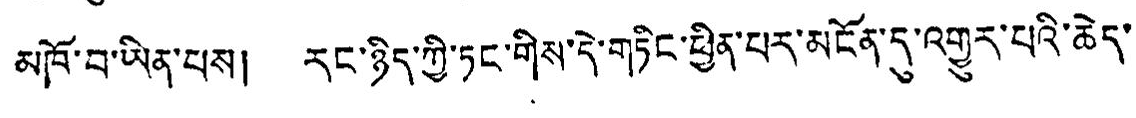མཁོ་བ་ཡིན་པས། རང་ཉིད་ཀྱི་ཏང་གིས་དེ་གཏིང་ཕྱིན་པར་མངོན་དུ་འགྱུར་པའི་ཆེད་
